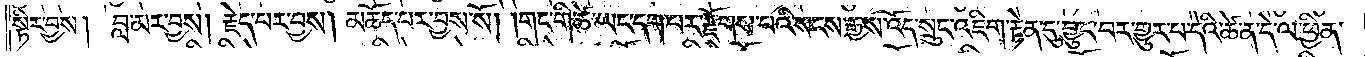སྟིར་བྱས། བླ་མར་བྱས། རྗེད་པར་བྱས། མཆོད་པར་བྱས་སོ། །གང་གི་ཚེ་ཡང་དག་པར་རྫོགས་པའི་སངས་རྒྱས་འོད་སྲུང་འཇིག་རྟེན་དུ་བྱུང་བར་གྱུར་བ་དེའི་ཚེ་ན་དེ་ལ་ཕྱིན་
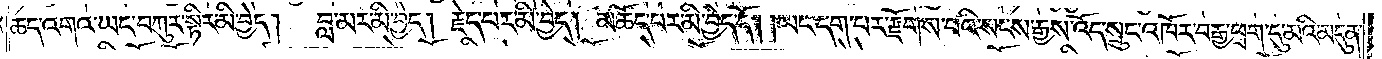ཆད་འགའ་ཡང་བཀུར་སྟིར་མི་བྱེད།   བླ་མར་མི་བྱེད། རྗེད་པར་མི་བྱེད། མཆོད་པར་མི་བྱེད་དོ། །ཡང་དག་པར་རྫོགས་པའི་སངས་རྒྱས་འོད་སྲུང་འཁོར་བ་བརྒྱ་ཕྲག་དུ་མའི་མདུན་
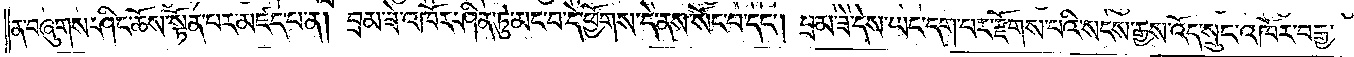ན་བཞུགས་ཤིང་ཆོས་སྟོན་པར་མཛད་པ་ན། བྲམ་ཟེ་འཁོར་ཤིན་ཏུ་མང་བ་དེ་ཕྱོགས་དེ་ནས་སོང་བ་དང༌། བྲམ་ཟེ་དེས་ཡང་དག་པར་རྫོགས་པའི་སངས་རྒྱས་འོད་སྲུང་འཁོར་བརྒྱ་
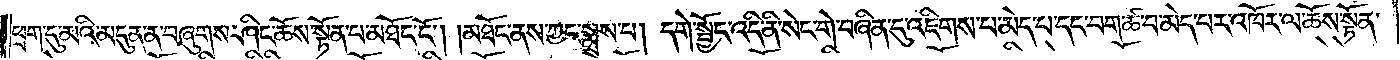ཕྲག་དུ་མའི་མདུན་ན་བཞུགས་ཤིང་ཆོས་སྟོན་པ་མཐོང་ངོ༌། །མཐོང་ནས་ཀྱང་སྨྲས་པ། དགེ་སྦྱོང་འདི་ནི་སེང་གེ་བཞིན་དུ་འཇིགས་པ་མེད་པ་དང་བག་ཚ་བ་མེད་པར་འཁོར་ལ་ཆོས་སྟོན་
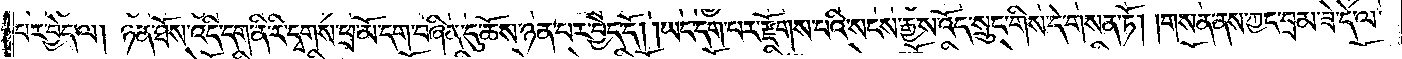པར་བྱེད་ལ། ཉན་ཐོས་འདི་དག་ནི་རི་དྭགས་ཕྲ་མོ་དག་བཞིན་དུ་ཆོས་ཉན་པར་བྱེད་དོ། །ཡང་དག་པར་རྫོགས་པའི་སངས་རྒྱས་འོད་སྲུང་གིས་དེ་གསན་ཏོ། །གསན་ནས་ཀྱང་བྲམ་ཟེ་དེ་ལ་
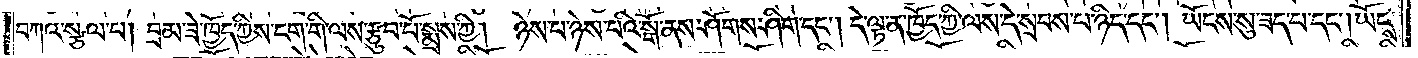བཀའ་སྩལ་པ། བྲམ་ཟེ་ཁྱོད་ཀྱིས་ངག་གི་ལས་རྩུབ་བོ་སྨྲས་ཀྱི། ཉེས་པ་ཉེས་པའི་སྒོ་ནས་ཤོགས་ཤིག་དང༌། དེ་ལྟ་ན་ཁྱོད་ཀྱི་ལས་དེ་སྲབས་པ་ཉིད་དང༌། ཡོངས་སུ་ཟད་པ་དང༌། ཡོངས་
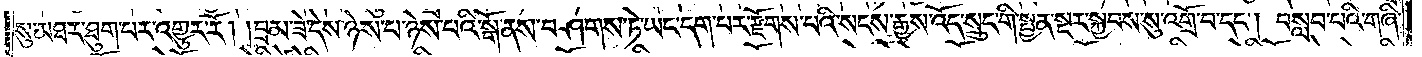སུ་མཐར་ཐུག་པར་འགྱུར་རོ། །བྲམ་ཟེ་དེས་ཉེས་པ་ཉེས་པའི་སྒོ་ནས་བཤགས་ཏེ་ཡང་དག་པར་རྫོགས་པའི་སངས་རྒྱས་འོད་སྲུང་གི་སྤྱན་སྔར་སྐྱབས་སུ་འགྲོ་བ་དང༌། བསླབ་པའི་གཞི་
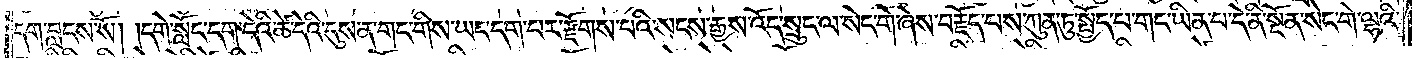དག་བླངས་སོ། །དགེ་སློང་དག་དེའི་ཚེ་དེའི་དུས་ན་གང་གིས་ཡང་དག་པར་རྫོགས་པའི་སངས་རྒྱས་འོད་སྲུང་ལ་སེང་གེ་ཞེས་བརྗོད་པས་ཀུན་ཏུ་སྤྱོད་པ་གང་ཡིན་པ་དེ་ནི་སྔོན་སེང་གེ་ལྷའི་
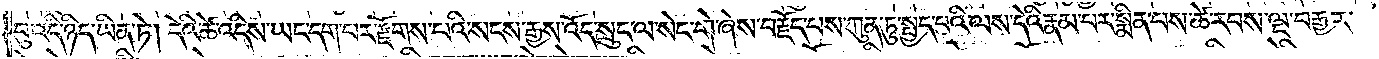བུ་འདི་ཉིད་ཡིན་ཏེ། དེའི་ཚེ་འདིས་ཡང་དག་པར་རྫོགས་པའི་སངས་རྒྱས་འོད་སྲུང་ལ་སེང་གེ་ཞེས་བརྗོད་པས་ཀུན་ཏུ་སྤྱད་པའི་ལས་དེའི་རྣམ་པར་སྨིན་པས་ཚེ་རབས་ལྔ་བརྒྱར་
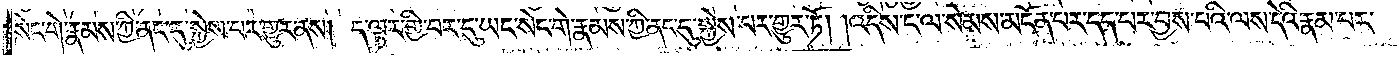སེང་གེ་རྣམས་ཀྱི་ནང་དུ་སྐྱེས་པར་གྱུར་ནས། ད་ལྟར་གྱི་བར་དུ་ཡང་སེང་གེ་རྣམས་ཀྱི་ནང་དུ་སྐྱེས་པར་གྱུར་ཏོ། །འདིས་ང་ལ་སེམས་མངོན་པར་དད་པར་བྱས་པའི་ལས་དེའི་རྣམ་པར་
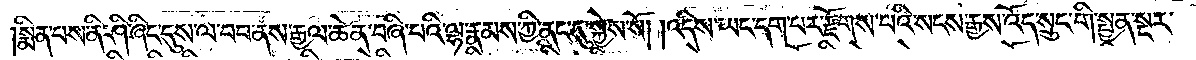སྨིན་པས་ནི་ཤི་ཞིང་དུས་ལ་བབ་ནས་རྒྱལ་ཆེན་བཞི་པའི་ལྷ་རྣམས་ཀྱི་ནང་དུ་སྐྱེས་སོ། །འདིས་ཡང་དག་པར་རྫོགས་པའི་སངས་རྒྱས་འོད་སྲུང་གི་སྤྱན་སྔར་
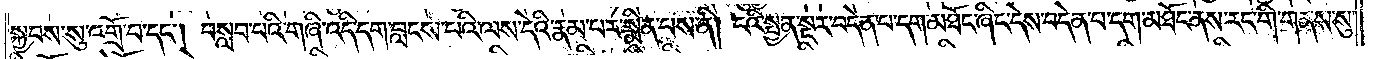སྐྱབས་སུ་འགྲོ་བ་དང༌། བསླབ་པའི་གཞི་འདི་དག་བླངས་པའི་ལས་དེའི་རྣམ་པར་སྨིན་པས་ནི། ངའི་སྤྱན་སྔར་བདེན་པ་དག་མཐོང་ཞིང་དེས་བདེན་པ་དག་མཐོང་ནས་རང་གི་གནས་སུ་
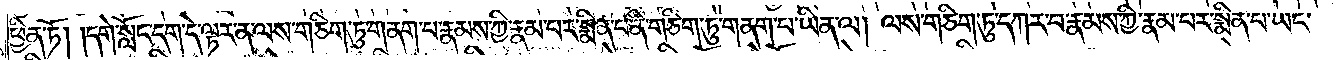ཕྱིན་ཏོ། །དགེ་སློང་དག་དེ་ལྟར་ན་ལས་གཅིག་ཏུ་གནག་པ་རྣམས་ཀྱི་རྣམ་པར་སྨིན་པ་ནི་གཅིག་ཏུ་གནག་པ་ཡིན་ལ། ལས་གཅིག་ཏུ་དཀར་བ་རྣམས་ཀྱི་རྣམ་པར་སྨིན་པ་ཡང་
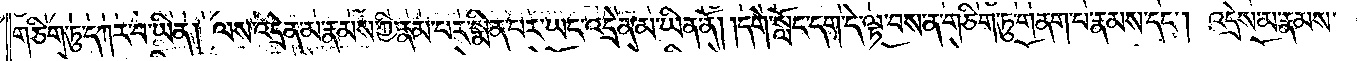གཅིག་ཏུ་དཀར་བ་ཡིན། ལས་འདྲེན་མ་རྣམས་ཀྱི་རྣམ་པར་སྨིན་པར་ཡང་འདྲེན་མ་ཡིན་ནོ། །དགེ་སློང་དག་དེ་ལྟ་བས་ན་གཅིག་ཏུ་གནག་པ་རྣམས་དང༌། འདྲེས་མ་རྣམས་
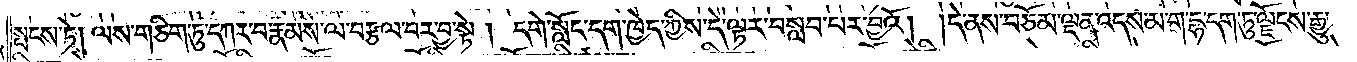སྤངས་ཏེ། ལས་གཅིག་ཏུ་དཀར་བ་རྣམས་ལ་བརྩལ་བར་བྱ་སྟེ། དགེ་སློང་དག་ཁྱེད་ཀྱིས་དེ་ལྟར་བསླབ་པར་བྱའོ། །དེ་ནས་བཅོམ་ལྡན་འདས་མ་ག་དྷ་དག་ཏུ་ལྗོངས་རྒྱུ་
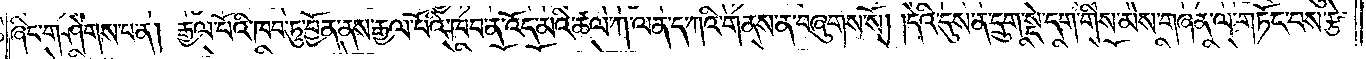ཞིག་གཤེགས་པ་ན། རྒྱལ་པོའི་ཁབ་ཏུ་བྱོན་ནས་རྒྱལ་པོའི་ཁབ་ན་འོད་མའི་ཚལ་ཀ་ལན་ད་ཀའི་གནས་ན་བཞུགས་སོ། །དེའི་དུས་ན་དྲུག་སྡེ་དག་གིས་མེས་གཞན་ལ་གཏོང་བས་རྩེ་
